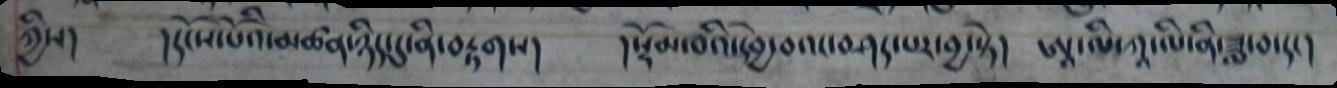ཀྱིས། །དངོས་པོའི་མཚན་ཉིད་དུ་ནི་བརྟགས། །སྡོམ་བའི་ཕྱེ་བའང་བཤད་པར་བྱ་སྟེ། ཨཱ་ལི་ཀཱ་ལི་ནི་ཟླ་བ་དང།
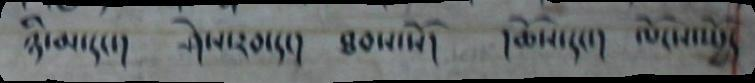ཉི་མ་དང་། ཤེས་རབ་དང། ཐབས་སོ། །ཆོས་དང་། ལོངས་སྤྱོད
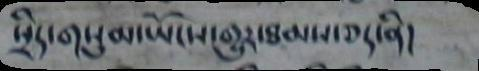སྲིད་གསུམ་ཡོངས་གྱུར་ཐམས་ཅད་ནི།
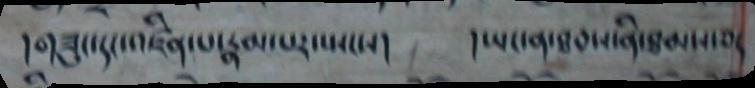།གཟུང་དང་འཛིན་པ་རྣམ་པར་སྤངས། །ཡང་ན་ཐབས་ནི་ཐམས་ཅད
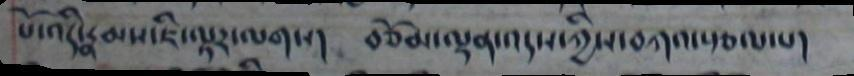པོ་འདི་རྣམས་ཇི་ལྟར་ལགས། བཅོམ་ལྡན་འདས་ཀྱིས་བཀའ་སྩལ་པ།
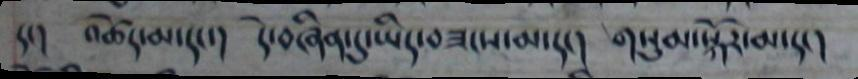དང། འཚེད་མ་དང་། དེ་བཞིན་དུ་ཡིད་བཟངས་མ་དང། གསུམ་སྐོར་མ་དང།
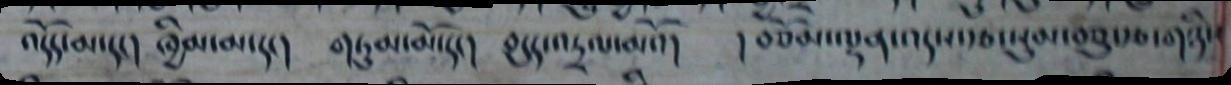འདོད་མ་དང། ཁྱིམ་མ་དང། གཏུམ་མོ་དང། བདུད་འདྲལ་མའོ། །བཅོམ་ལྡན་འདས་རྩ་སུམ་བཅུ་རྩ་གཉིས
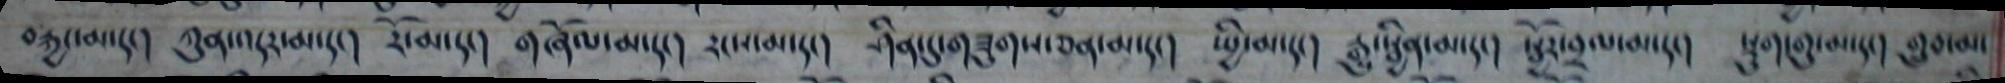བརྐྱང་མ་དང། ཀུན་འདར་མ་དང། རོ་མ་དང། གཞོལ་མ་དང། རངས་མ་དང། ཤིན་དུ་གཟུགས་ཅན་མ་དང། ཕྱི་མ་དང། རྒྱུ་སྦྱིན་མ་དང། སྦྱོར་བྲལ་མ་དང། སྡུག་གུ་མ་དང། གྲུབ་མ་
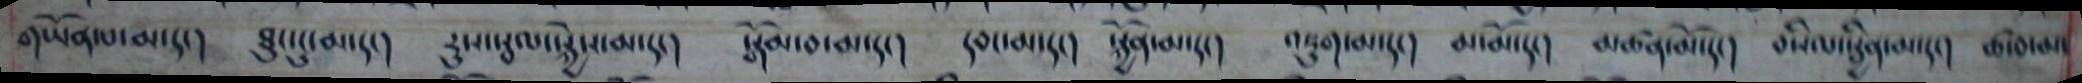གཡོན་མ་དང། ཐུང་ངུ་མ་དང། རུས་སྦལ་སྐྱེས་མ་དང། སྒོམ་བ་མ་དང། དབང་མ་དང། སྐྱོན་མ་དང། འཇུག་མ་དང། མ་མོ་དང། མཚན་མོ་དང། བསིལ་སྦྱིན་མ་དང། ཚ་བ་མ་
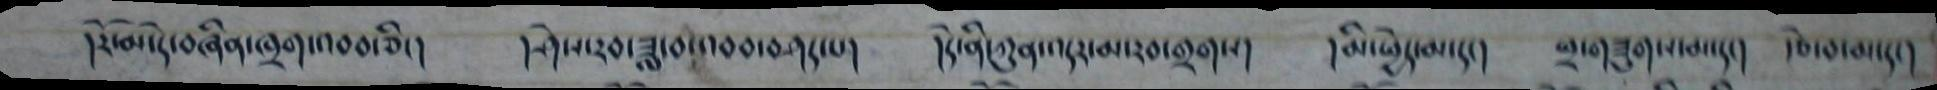།རོ་མ་དེ་བཞིན་ཁྲག་འབབ་ཅིང། །ཤེས་རབ་ཟླ་བ་འབབ་བཤད་པ། །དེ་ནི་ཀུན་འདར་མ་རབ་གྲགས། །མི་ཕྱེད་མ་དང། ཕྲ་གཟུགད་མ་དང། རྩེ་བ་མ་དང།
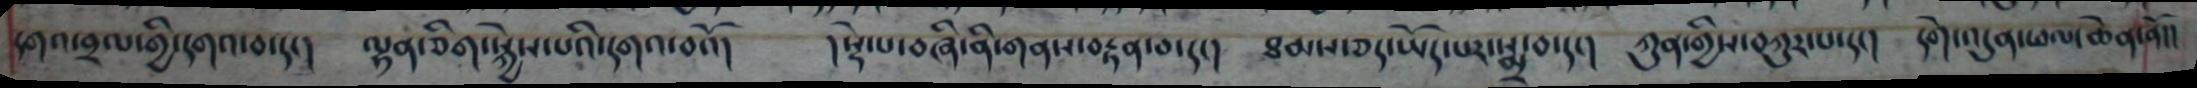དགའ་བྲལ་གྱི་དགའ་བ་དང། ལྷན་ཅིག་སྐྱེས་པའི་དགའ་བའོ། །སྡེ་པ་བཞི་ནི་གནས་བརྟན་བ་དང། ཐམས་ཅད་ཡོད་པར་སྨྲ་བ་དང། ཀུན་གྱིས་བཀུར་པ་དང། དགེ་འདུན་ཕལ་ཆེན་ནོ།།
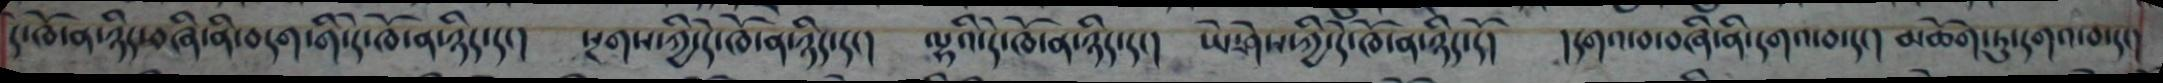དེ་ཁོ་ན་ཉིད་བཞི་ནི་བདག་གི་དེ་ཁོ་ན་ཉིད་དང། སྔགས་ཀྱི་དེ་ཁོ་ན་ཉིད་དང། ལྷའི་དེ་ཁོ་ན་ཉིད་དང། ཡེ་ཤེས་ཀྱི་དེ་ཁོ་ན་ཉིད་དོ། །དགའ་བ་བཞི་ནི་དགའ་བ་དང། མཆོག་ཏུ་དགའ་བ་དང།
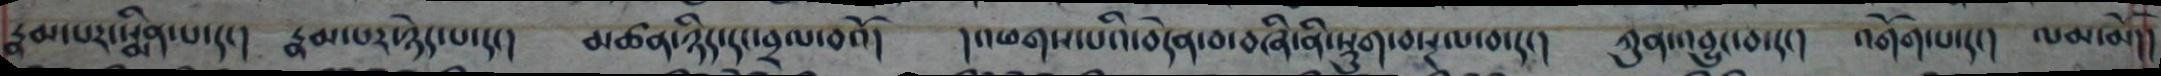རྣམ་པར་སྨིན་པ་དང། རྣམ་པར་ཉེད་པ་དང། མཚན་ཉིད་དང་བྲལ་བའོ། །འཕགས་པའི་བདེན་བ་བཞི་ནི་སྡུག་བསྔལ་བ་དང། ཀུན་འབྱུང་བ་དང། འགོག་པ་དང། ལམ་མོ།།
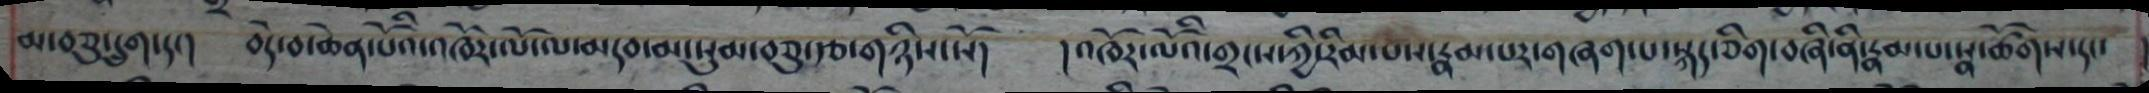མ་བཅུ་དྲུག་དང། བདེ་བ་ཆེན་པོའི་འཁོར་ལོ་ལ་མདབ་མ་སུམ་བཅུ་རྩ་གཉིས་སོ། །འཁོར་ལོའི་གྲངས་ཀྱི་རིམ་པས་རྣམ་པར་གཞག་པ་སྐད་ཅིག་བཞི་ནི་རྣམ་པ་སྣ་ཚོགས་དང་
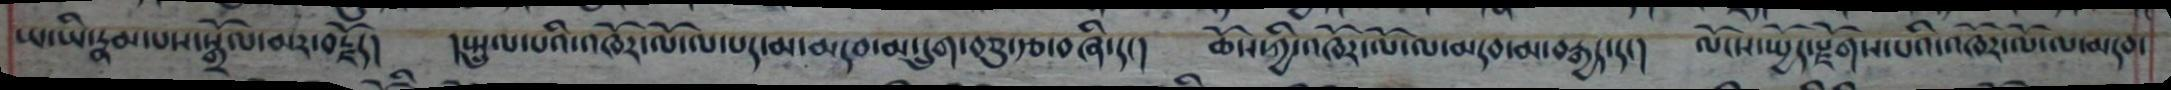ཡ་ཡི་རྣམ་པས་སྒྲོལ་མར་བརྗོད། །སྤྲུལ་པའི་འཁོར་ལོ་ལ་པད་མ་མདབ་མ་དྲུག་བཅུ་རྩ་བཞི་དང། ཆོས་ཀྱི་འཁོར་ལོ་ལ་མདབ་མ་བརྒྱད་དང། ལོངས་སྤྱོད་སྫོགས་པའི་འཁོར་ལོ་ལ་མདབ་
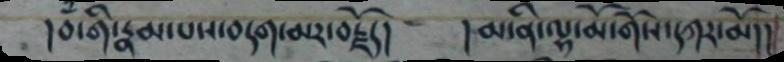།བ་གི་རྣམ་པས་བདག་མར་བརྗོད། །མ་ནི་ལྷ་མོ་གོས་དཀར་མོ།།
